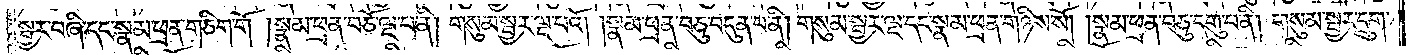སྦྱར་བཞི་དང་སྣམ་ཕྲན་གཅིག་གོ །སྣམ་ཕྲན་བཅོ་ལྔ་པ་ནི། གསུམ་སྦྱར་ལྔ་པའོ། །སྣམ་ཕྲན་བཅུ་བདུན་པ་ནི། གསུམ་སྦྱར་ལྔ་དང་སྣམ་ཕྲན་གཉིས་སོ། །སྣམ་ཕྲན་བཅུ་དགུ་པ་ནི། གསུམ་སྦྱར་དྲུག་
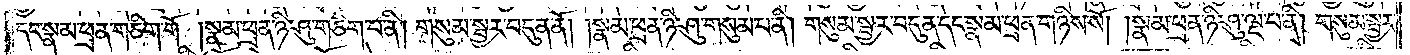དང་སྣམ་ཕྲན་གཅིག་གོ །སྣམ་ཕྲན་ཉི་ཤུ་གཅིག་པ་ནི། གསུམ་སྦྱར་བདུན་ནོ། །སྣམ་ཕྲན་ཉི་ཤུ་གསུམ་པ་ནི། གསུམ་སྦྱར་བདུན་དང་སྣམ་ཕྲན་གཉིས་སོ། །སྣམ་ཕྲན་ཉི་ཤུ་ལྔ་པ་ནི། གསུམ་སྦྱར་
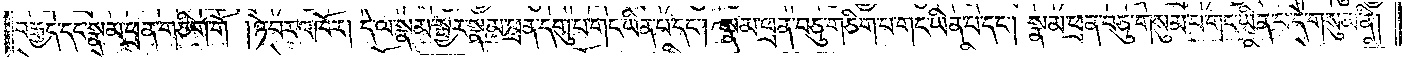བརྒྱད་དང་སྣམ་ཕྲན་གཅིག་གོ །ཉེ་བར་འཁོར། དེ་ལ་སྣམ་སྦྱར་སྣམ་ཕྲན་དགུ་པ་གང་ཡིན་པ་དང༌། སྣམ་ཕྲན་བཅུ་གཅིག་པ་གང་ཡིན་པ་དང༌། སྣམ་ཕྲན་བཅུ་གསུམ་པ་གང་ཡིན་པ་དེ་གསུམ་ནི།
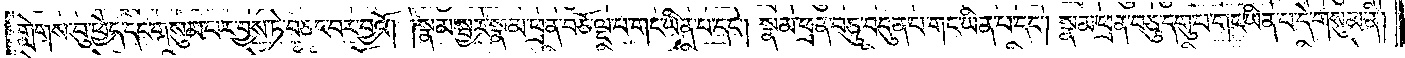གླེགས་བུ་ཕྱེད་དང་གསུམ་པར་བྱས་ཏེ་བཅང་བར་བྱའོ། །སྣམ་སྦྱར་སྣམ་ཕྲན་བཅོ་ལྔ་པ་གང་ཡིན་པ་དང༌། སྣམ་ཕྲན་བཅུ་བདུན་པ་གང་ཡིན་པ་དང༌། སྣམ་ཕྲན་བཅུ་དགུ་པ་གང་ཡིན་པ་དེ་གསུམ་ནི།
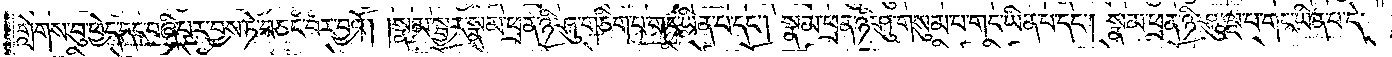གླེགས་བུ་ཕྱེད་དད་བཞི་པར་བྱས་ཏེ་བཅང་བར་བྱའོ། །སྣམ་སྦྱར་སྣམ་ཕྲན་ཉི་ཤུ་གཅིག་པ་གང་ཡིན་པ་དང༌། སྣམ་ཕྲན་ཉི་ཤུ་གསུམ་པ་གང་ཡིན་པ་དང༌། སྣམ་ཕྲན་ཉི་ཤུ་ལྔ་པ་གང་ཡིན་པ་དེ་
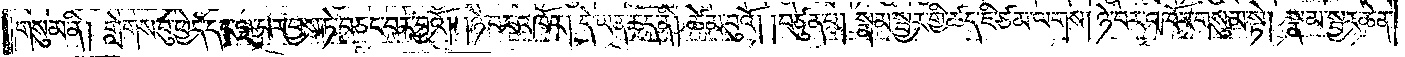གསུམ་ནི། གླེགས་བུ་ཕྱེད་དང་ལྔ་པར་བྱས་ཏེ་བཅང་བར་བྱའོ། །ཉེ་བར་འཁོར། དེ་ཡན་ཆད་ནི། ཚེམ་བུའོ། །བཙུན་པ། སྣམ་སྦྱར་གྱི་ཚད་ཇི་ཙམ་ལགས། ཉེ་བར་འཁོར་གསུམ་སྟེ། སྣམ་སྦྱར་ཆེན་
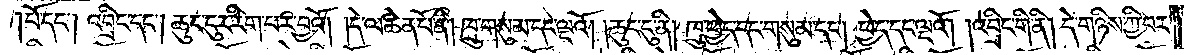པོ་དང༌། འབྲིང་དང༌། ཆུང་ངུར་རིག་པར་བྱའོ། །དེ་ལ་ཆེན་པོ་ནི། ཁྲུ་གསུམ་དང་ལྔའོ། །ཆུང་ངུ་ནི། ཁྲུ་ཕྱེད་དང་གསུམ་དང༌། ཕྱེད་དང་ལྔའོ། །འབྲིང་གི་ནི། དེ་གཉིས་ཀྱི་བར་
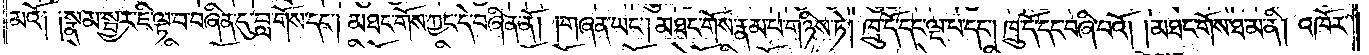མའོ༑ ༑སྣམ་སྦྱར་ཇི་ལྟ་བ་བཞིན་དུ་བླ་གོས་དང༌། མཐང་གོས་ཀྱང་དེ་བཞིན་ནོ། །གཞན་ཡང༌། མཐང་གོས་རྣམ་པ་གཉིས་ཏེ། ཁྲུ་དོ་དང་ལྔ་པ་དང༌། ཁྲུ་དོ་དང་བཞི་པའོ། །མཐང་གོས་ཐ་མ་ནི། འཁོར་
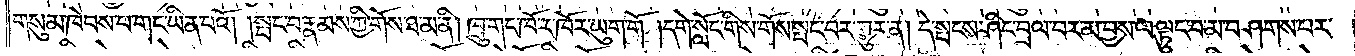གསུམ་ཁེབས་པ་གང་ཡིན་པའོ། །སྤང་བ་རྣམས་ཀྱི་གོས་ཐ་མ་ནི། ཁྲུ་གང་ཁོ་ར་ཁོར་ཡུག་གོ །དགེ་སློང་གིས་གོས་སྤང་བར་གྱུར་ན། དེ་སྤངས་ཤིང་བྲལ་བར་མ་བྱས་ལ་ལྟུང་བ་མ་བཤགས་པར་
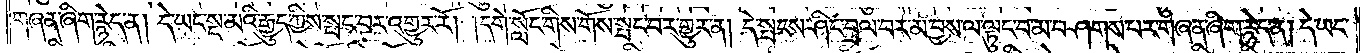གཞན་ཞིག་རྙེད་ན། དེ་ཡང་སྔ་མའི་རྒྱུད་ཀྱིས་སྤང་བར་འགྱུར་རོ། །དགེ་སློང་གིས་གོས་སྤང་བར་གྱུར་ན། དེ་སྤངས་ཤིང་བྲལ་བར་མ་བྱས་ལ་ལྟུང་བ་མ་བཤགས་པར་གཞན་ཞིག་རྙེད་ན། དེ་ཡང་
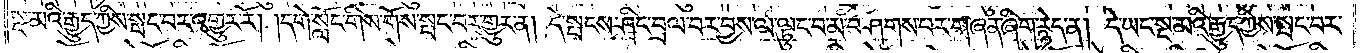སྔ་མའི་རྒྱུད་ཀྱིས་སྤང་བར་འགྱུར་རོ། །དགེ་སློང་གིས་གོས་སྤང་བར་གྱུར་ན། དེ་སྤངས་ཤིང་བྲལ་བར་བྱས་ལ་ལྟུང་བ་མ་བཤགས་པར་གཞན་ཞིག་རྙེད་ན། དེ་ཡང་སྔ་མའི་རྒྱུད་ཀྱིས་སྤང་བར་
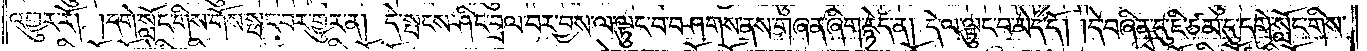འགྱུར་རོ། །དགེ་སློང་གིས་གོས་སྤང་བར་གྱུར་ན། དེ་སྤངས་ཤིང་བྲལ་བར་བྱས་ལ་ལྟུང་བ་བཤགས་ནས་གཞན་ཞིག་རྙེད་ན། དེ་ལ་ལྟུང་བ་མེད་དོ། །དེ་བཞིན་དུ་ཇི་ཙམ་དུ་དགེ་སློང་གིས་
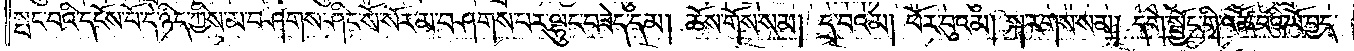སྤང་བའི་དངོས་པོ་དེ་ཉིད་ཀྱིས་མ་བཤགས་ཤིང་སོ་སོར་མ་བཤགས་པར་ལྷུང་བཟེད་དམ། ཆོས་གོས་སམ། དྲ་བའམ། ཕོར་བུའམ། སྐ་རགས་སམ། དགེ་སྦྱོང་གི་འཚོ་བའི་ཡོ་བྱད་
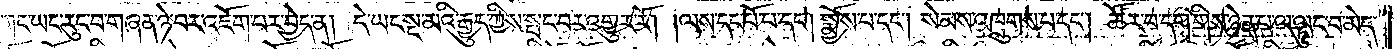གང་ཡང་རུང་བ་གཞན་ཉེ་བར་འཇོག་པར་བྱེད་ན། དེ་ཡང་སྔ་མའི་རྒྱུད་ཀྱིས་སྤང་བར་འགྱུར་རོ། །ལས་དང་པོ་པ་དང༌། སྨྱོས་པ་དང༌། སེམས་འཁྲུགས་པ་དང༌། ཚོར་བ་དག་གིས་ཉེན་པ་ལ་ལྟུང་བ་མེད་
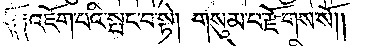དོ༑ ༑འཇོག་པའི་སྤང་བ་སྟེ། གསུམ་པ་རྫོགས་སོ༎
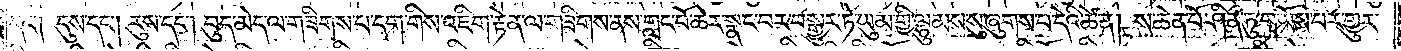དང༌། དུས་དང༌། རུས་དང༌། བུད་མེད་ལ་གཟིགས་པ་དག་གིས་འཇིག་རྟེན་ལ་གཟིགས་ནས་གླང་པོ་ཆེར་སྣང་བར་བསྒྱུར་ཏེ་ཡུམ་གྱི་ལྷུམས་སུ་ཞུགས་པ་དེའི་ཚེ་ན། ས་ཆེན་པོ་ཤིན་ཏུ་གཡོས་པར་གྱུར་
